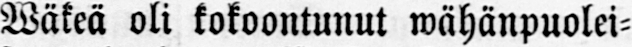Wäkeä oli kokoontunut wähänpuolei-
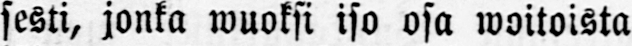sesti, jonka wuoksi iso osa woitoista
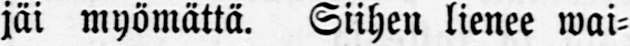jäi myömättä. Siihen lienee wai-
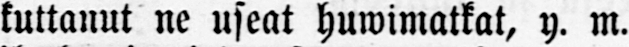kuttanut ne useat huwimatkat, y. m.
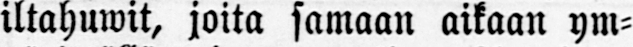iltahuwit, joita samaan aikaan ym-
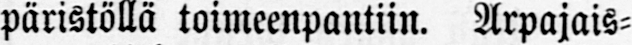päristöllä toimeenpantiin. Arpajais-
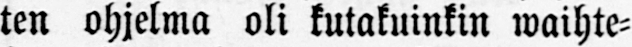ten ohjelma oli kutakuinkin waihte-
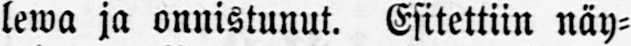lewa ja onnistunut. Esitettiin näy-
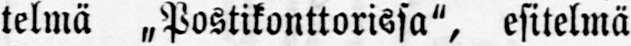telmä „Postikonttorissa", esitelmä
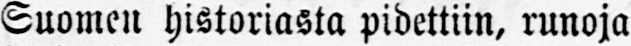Suomen historiasta pidettiin, runoja
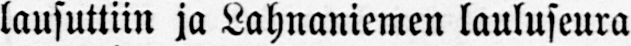lausuttiin ja Lahnaniemen lauluseura
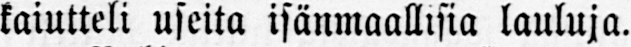kaiutteli useita isänmaallisia lauluja.
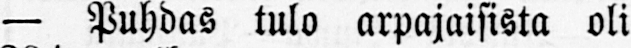— Puhdas tulo arpajaisista oli
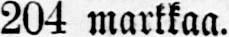204 markkaa.
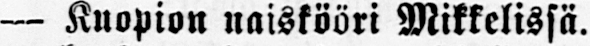— Kuopion naiskööri Mikkelissä.
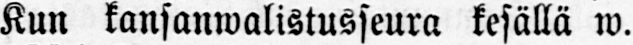Kun kansanwalistusseura kesällä w.
